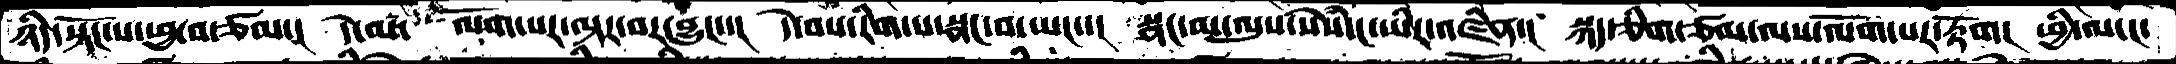ཉིད་སྟོང་པ་ཕྱ་བ་ཙམ་།  དེ་མ་  ལོག་པར་ལྟར་བར་བྱུང་་།  དེ་བས་རིག་པ་སྣང་བ་ཡང་་།  སྣང་མ་ལུས་སེཾས་ང་ཡིར་འཛིན་།  སྐད་ཅིག་ཙམ་ལས་ལོག་པར་རྟོག།  ཕྱི་ལ་ང་
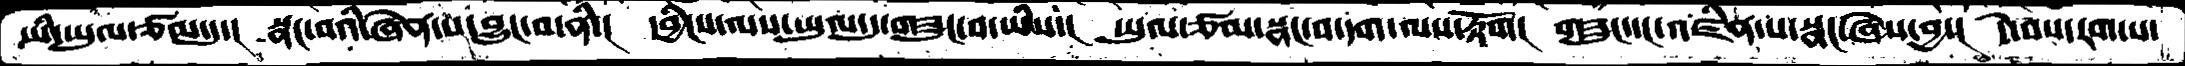ཡི་ཡུལ་ཙམ་དུ་།  སྣང་བའི་ཞེན་པ་བྱུང་བ་ནི་།  དབྱིངས་ལས་ཡུལ་དུ་གཟུང་བ་ཡིས་།  ཡུལ་ཙམ་སྣང་བ་དག་ལས་རྟོག།  གཟུང་དང་འཛིན་པ་སྣང་ཞེས་བྱ་།  དེ་བས་རག་པ་
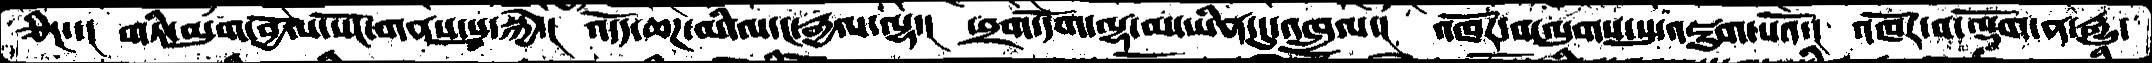ཅིང་་།  གཏི་མུག་བྱོལ་སོང་གནས་སུ་སྐྱེ་།  འདོད་ཆཌ་མི་ལ་ང་རྒྱལ་ལྷ་།  ཕྲག་དོག་ལྷ་མ་ཡིན་དུ་འཁྲུལ་།  འཁོར་བ་ལུགས་སུ་འཇུག་པའོ་།  འཁོར་བ་ལྡོག་ན་རྒྱུ་
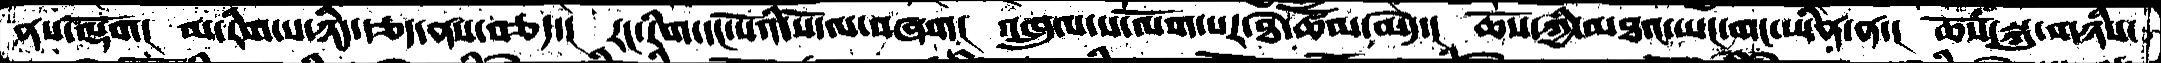ནས་ལྡོག།  མ་རིག་པ་ཉིད་རྩད་ནས་བཅད་།  རང་རིག་དང་པོའི་སོ་ལ་བཞག།  འཁྲུལ་པ་ལོག་པར་ཐེ་ཚོམ་མེད་།  ཆོས་ཀྱི་མཐའ་ཡང་གང་ཡིན་ན་།  ཆོས་སྐུ་གཉིས་
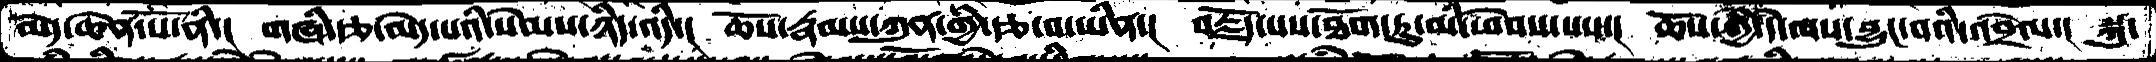མེད་ཆེན་པོ་ནི་།  གཞི་རྩ་མེད་པའི་སེམས་ཉིད་འདི་།  ཆོས་རྣམས་ཀུན་གྱི་རྩ་བ་ཡིན་།  བརྗོད་པས་ཐོག་ཏུ་མི་ཕེབས་པས་།  ཆོས་ཀྱི་དེ་ལས་བྱུང་བའི་འབྲེལ་།  སྐུ་
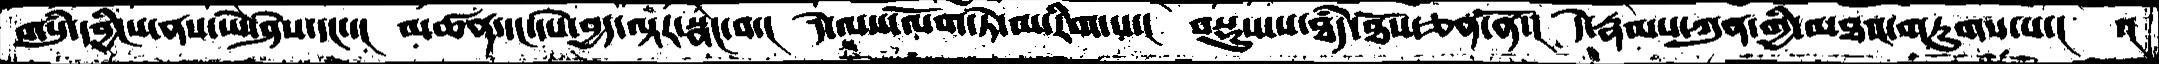གསུཾ་དབྱིངས་ནས་ཡེེ་ཤེས་དང་་།  མཚན་དང་དཔེ་བྱད་ལྟར་སྣང་བ་།  དེ་ལས་ལོག་ཏེ་མ་རིག་པ་།  བསྡུས་པ་ཐཾད་ཐོས་ཅན་ནོ་།  དེ་རྣམས་ཀུན་གྱི་མཐའ་གཏུགས་པ་།   ་།
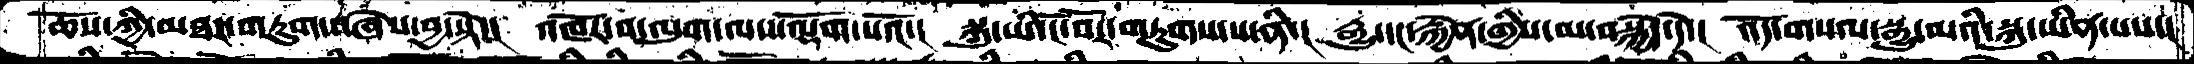ཆོས་ཀྱི་མཐར་གཏུགས་བཞེས་བྱ་སྟེ་།  འཁོར་བ་ལུག་ལས་ལྡོག་པའོ་།  སྐུ་ཡི་ངོ་བོར་གཏུགས་པ་ནི་།  རྒྱུ་དང་རྐྱེན་གྱིས་མ་བསྐྱེད་དེ་།  འོད་གསལ་སྒྱུ་མའི་སྐུ་ཡིན་པས་།
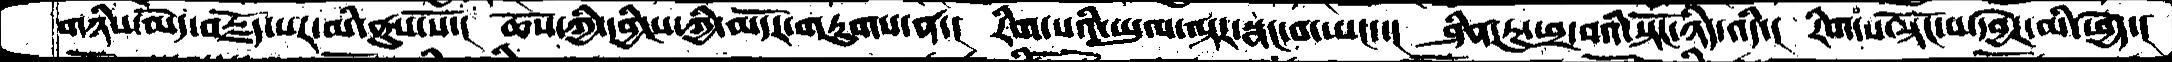གཉིས་མེད་བརྗོད་པར་མི་ནུས་སོ་།  ཆོས་ཀྱི་དབྱིངས་ཀྱི་མདོར་གཏུགས་ན་།  རིག་པའི་ཡུལ་ལྟར་སྣང་བ་ཡང་་།  ཤིན་ཏུ་ཕྲ་བའི་སྟོང་ཉིད་འདི་།  རིག་པ་སྟོང་བ་དབྱེར་མི་ཕྱེད་།
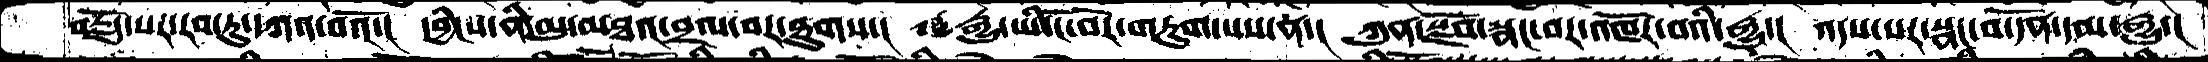བརྗོད་པར་རབ་ཏུ་དཀའ་བའོ་།  དབྱིངས་ནི་མུ་མཐའ་བྲལ་བར་ཐུགས་།  རྒྱུ་ཡི་ངོ་བོར་གཏུག་པས་ན་།  ཀུན་སྫོབ་སྣང་བར་འཁོར་བའི་རྒྱུ་།  འདས་པར་སྣང་བ་དོན་དམ་རྒྱུ་།
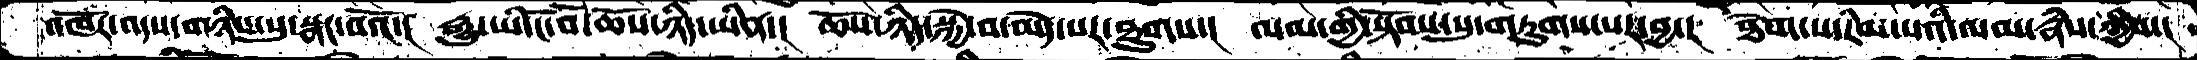འཁོར་འདས་གཉིས་སུ་སྣང་བའོ་།  རྒྱུ་ཡི་ངོ་བོ་ཆོས་ཉིད་ཡིན་།  ཆོས་ཉིད་སྐྱེ་བ་མེད་པར་ཐུགས་།  ལམ་གྱི་སྟོབས་སུ་གཏུགས་པར་བྱ་།  ཐེག་པ་རིམ་པའི་ལམ་རྣཾས་ཀྱིས་།
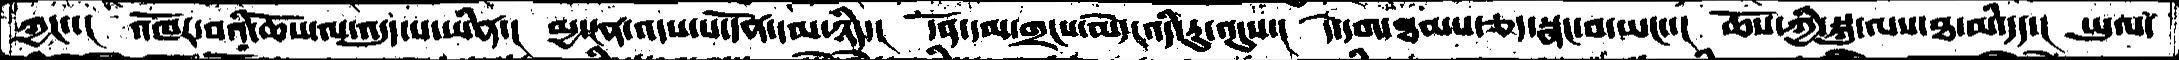ཀྱང་་།  འཁོར་བའི་ཆོས་ལ་འདུད་པ་ཡིན་།  མྱ་ངན་འདས་པ་དོན་དམ་ཉིད་།  དོན་དམ་གྲངས་མེད་འདི་རུ་འདུས་།  དེ་དག་ཐམས་ཅད་སྣང་བ་ཡང་་།  ཆོས་ཀྱི་སྐུ་ལས་ཐ་མི་དད་།  ཡུལ་
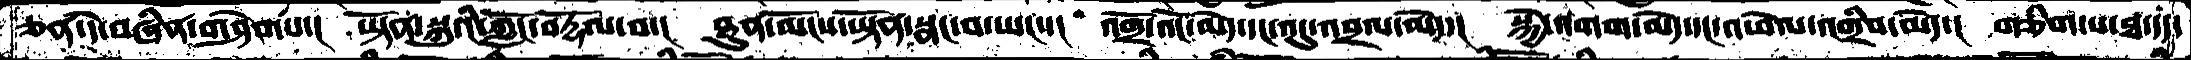ཅན་དེ་བཞིན་གཤེགས་།  ཡྟོན་སྐུའི་ཀློང་བརྡོལ་བ་།  ཐུན་མོངས་ཡྟོན་སྣང་བ་ཡང་་།  འགྲོ་འོང་མེད་དང་འདུ་འབྲལ་མེད་།  སྐྱེ་འགག་མེད་དང་འཕེལ་འགྲིབ་མེད་།  གཅིག་པ་ཐ་དད་
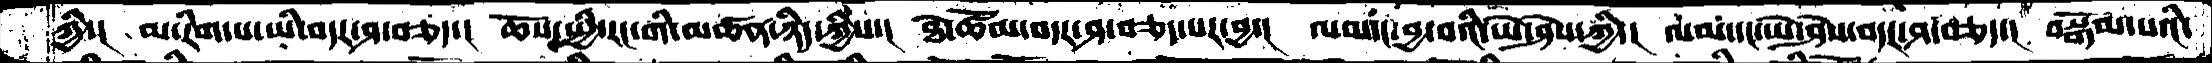ཀྱི་།  མ་རིག་པ་ཡི་བདར་ཤ་བཅད་།  ཆོས་སྤྱི་རང་གི་མཚན་ཉིད་ཀྱིས་།  ཐེ་ཚོམ་བདར་ཤ་བཅད་པར་བྱ་།  ལམ་དང་བྱ་བའི་ཡེ་ཤེས་ཀྱི་།  ལམ་དང་ཡེ་ཤེས་བདར་ཤ་བཅད་།  བསྒོམ་པའི་
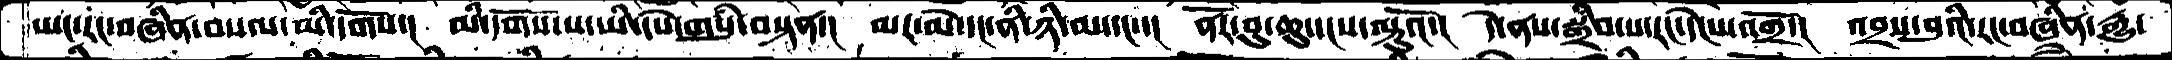ཡང་རང་བཞིན་བསལ་མི་དགོས་།  མི་དགོས་པ་ཡི་དཔེ་གསུཾ་བསྟན་།  མར་མེ་དང་ནི་ཉི་མ་དང་་།  ནོར་བུ་ཆུ་དངས་ལྟུའོ་།  དེ་ནས་སྒྲིབ་པ་རང་དེངས་འགྲོ་།  འབྲས་བུའི་རང་བཞིན་རྒྱུ་
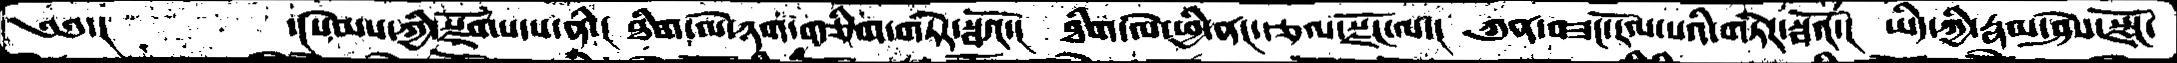༄༅་།     ་།སེམས་ཀྱི་སྫོགས་པ་ནི་།  ཐིག་ལེ་ཉག་གཅིག་གཏེར་སྦའོ་།  ཐིག་ལེ་ཕྱི་ནང་རྩལ་སྫོཌ་ལ་།  ཀུན་བཟང་རོལ་པའི་གཏེར་སྦའོ་།  ཡིད་ཀྱི་རྣམ་ཤེས་སྫོཌ་
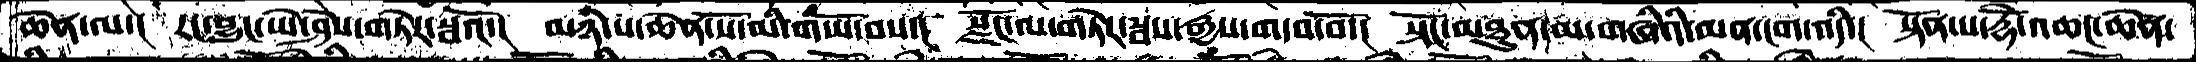ཆེན་ལ་།  རང་བྱུང་ཡེ་ཤེས་གཏེར་སྦའོ་།  མཉཾ་པ་ཆེན་པོ་མི་གཡོ་བས་།  སྫོཌ་ལ་གཏེར་སྦས་རྒྱས་གདབ་བོ་།  སྟོང་མཐུན་མ་གཞིའི་མན་ངག་འདི་།  སྟོན་པ་རྡོེ་འཆང་ཆེན་
